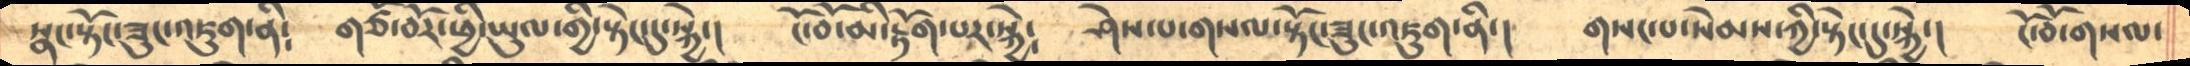སྣང་སྟོང་ཟུང་འཇུག་ནི༴    གཙོ་བོར་ཕྱི་ཡུལ་གྱི་སྟེང་དུ་སྐྱེ་།      ངོ་བོ་མི་རྟོག་པར་སྐྱེ༴       ཤེས་པ་གསལ་སྟོང་ཟུང་འཇུག་ནི་།    གསང་བ་སེམས་ཀྱི་སྟེང་དུ་སྐྱེ་།    ངོ་བོ་གསལ་
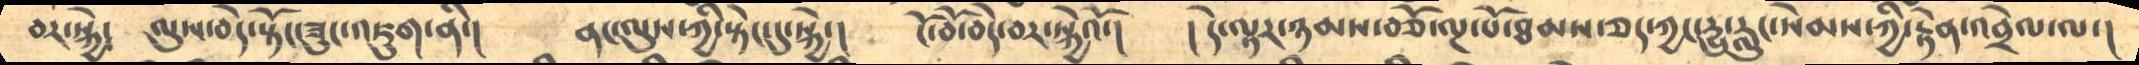བར་སྐྱེ༴      ལུས་བདེ་སྟོང་ཟུང་འཇུག་ནི་།   ནང་ལུས་ཀྱི་སྟེང་དུ་སྐྱེ་།    ངོ་བོ་བདེ་བར་སྐྱེའོ་།     ། དེ་ལྟར་ཉམས་བཅོ་ལྔ་པོ་ཐམས་ཅད་ཀྱང་དྱུ་རླུང་སེམས་ཀྱི་རྟེན་འབྲེལ་ལ་།
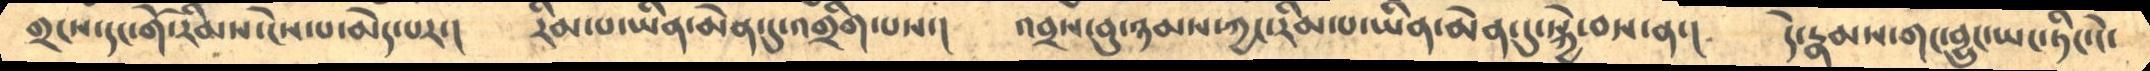གྲངས་དང་གོ་རིམས་ངེས་པ་མེད་པར་།    རིམ་པ་ཡིན་མེན་དུ་འགྲིག་པས་།    འབྲས་བུ་ཉམས་ཀྱང་རིམ་པ་ཡིན་མེན་དུ་སྐྱེ་བས་ན་།   དེ་རྣམས་གང་བྱུང་ཡང་ཏིང་ངེ་
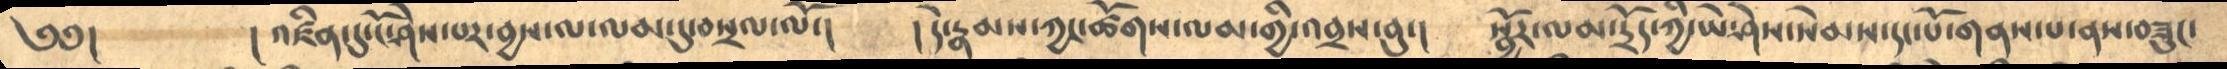༄༅།       ། འཛིན་དུ་ངོ་ཤེས་པར་བྱས་ལ་ལམ་དུ་བསྲལ་ལོ་།   །དེ་རྣམས་ཀྱང་ཚོགས་ལམ་གྱི་འབྲས་བུ་།   སྦྱོར་ལམ་དྲོད་ཀྱི་ཡེ་ཤེས་སེམས་དང་པོ་གནས་པ་ནས་བཟུང་
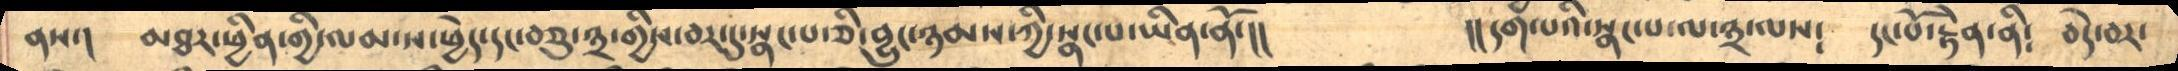ནས་། མཐར་ཕྱིན་གྱི་ལམ་ས་ཕྱེད་དང་བཅུ་༣་གྱིས་བར་དུ་སྣང་བ་ཅི་བྱུང་ཉམས་ཀྱི་སྣང་པ་ཡིན་ནོ་།།   །།དག་པའི་སྣང་པ་ལ་༣་ལས༴  དང་པོ་རྟེན་ནི༴ བདེ་བར་
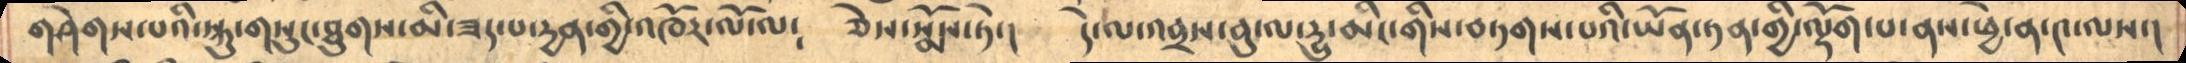གཤེགས་པའི་སྐུ་གསུང་ཐུགས་མི་ཟད་པ་དྱན་གྱི་འཁོར་ལོ་ལ༴ ཅེས་སྨོས་ཏེ་། དེ་ལ་འབྲས་བུ་ལ་དྱུ་མིང་གིས་བཏགས་པའི་ཡོན་ཏན་གྱི་ལྡོག་པ་ནས་ཕྱེ་ན་༤་ལས་།
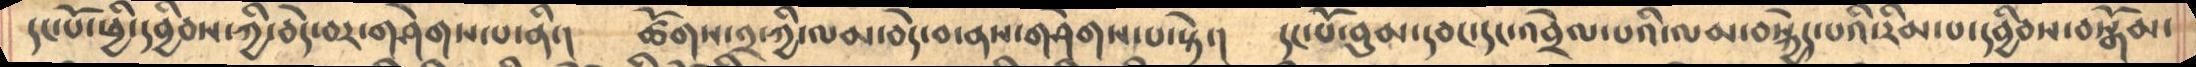དང་པོ་ཕྱི་དབྱིབས་ཀྱི་བདེ་བར་གཤེགས་པ་ནི་།  ཚོགས་༢་ཀྱི་ལམ་བདེ་བ་ནས་གཤེགས་པ་སྟེ་། དང་པོ་བུམ་དབང་དང་འབྲེལ་པའི་ལམ་བསྐྱེད་པའི་རིམ་པ་དབྱིབས་བསྒོམ་
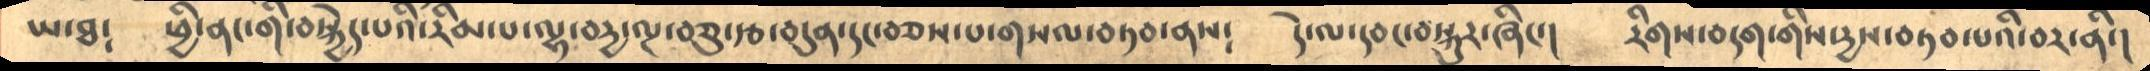ཡ་ཐ༴ ཕྱིནང་གི་བསྐྱེད་པའི་རིམ་པ་ལྷ་བདྱ་ལྔ་བཅུ་རྩ་བདུན་དང་བཅས་པ་གསལ་བཏབས་ནས༴ དེ་ལ་དབང་བསྐུར་ཞིང་། རིགས་བདག་གིས་དྱས་བཏབ་པའི་བར་ནི་།
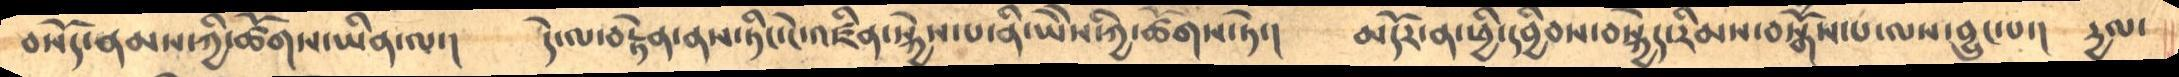བསོད་ནམས་ཀྱི་ཚོགས་ཡིན་ལ་། དེ་ལ་བརྟེན་ནས་ཏིང་ངེ་འཛིན་སྐྱེས་པ་ནི་ཡེེས་ཀྱི་ཚོགས་ཏེ་། མདོར་ན་ཕྱི་དབྱིབས་བསྐྱེད་རིམས་བསྒོཾས་པ་ལས་བྱུང་པ་། དྱལ་
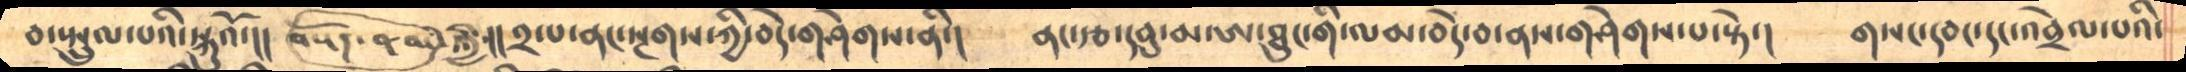བ་སྤྲུལ་པའི་སྐུའོ་།།  བསོད་ནམས་ཀྱི །།༢་པ་ནང་སྔགས་ཀྱི་བདེ་གཤེགས་ནི་།  ནང་རྩ་དབུ་མ་ཨ་ཐུང་གི་ལམ་བདེ་བ་ནས་གཤེགས་པ་སྟེ་།  གསང་དབང་དང་འབྲེལ་པའི་
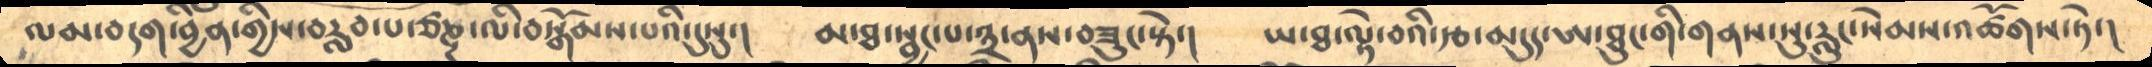ལམ་བདག་བྱིན་གྱིས་བརླབ་པ་ཙཎྔ་ལི་བསྒོམས་པའི་དུསུ་། མ་ཐ་སྦྱང་པ་༣་ནས་བཟུང་སྟེ་། ཡ་ཐ་ལྟེ་བའི་རྩ་མདུད་ཨ་ཐུང་གི་གནས་སུ་རླུང་སེམས་འཚོགས་ཏེ་།
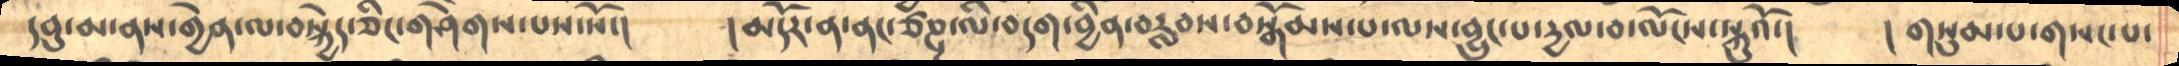དབུ་མ་ནས་གྱེན་ལ་བསྐྱེད་ཅིང་གཤེགས་པས་སོ་། །མདོར་ན་ནང་ཙཎྔ་ལི་བདག་བྱིན་བརླབས་བསྒོམས་པ་ལས་བྱུང་པ་དྱལ་བ་ལོངས་སྐུའོ་།  །གསུམ་པ་གསང་པ་
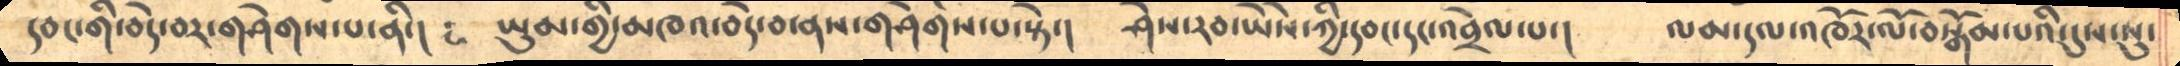དབང་གི་བདེ་བར་གཤེགས་པ་ནི་།   ཡུམ་གྱི་མཁའ་བདེ་བ་ནས་གཤེགས་པ་སྟེ་། ཤེས་རབ་ཡེེས་ཀྱི་དབང་དང་འབྲེལ་པ་། ལམ་དལ་འཁོར་ལོ་བསྒོམ་པའི་དུས་སུ་
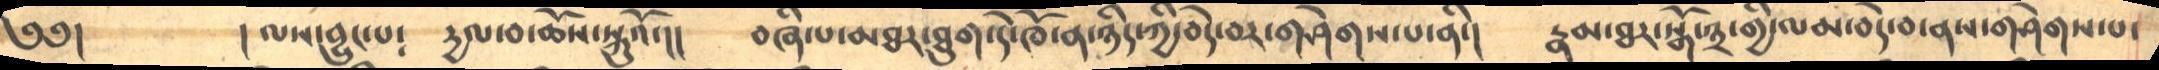༄༅།  །ལས་བྱུང་པ༴ དྱལ་བ་ཆོས་སྐུའོ་།། བཞི་པ་མཐར་ཐུགས་དེ་ཁོ་ན་ཉིད་ཀྱི་བདེ་བར་གཤེགས་པ་ནི་། རྣམ་ཐར་སྒོ་༣་གྱི་ལམ་བདེ་བ་ནས་གཤེགས་པ་
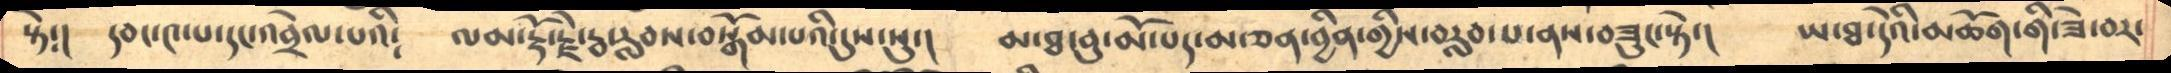སྟེ༴། དབང་༤་པ་དང་འབྲེལ་པའི༴ ལམ་རྡོ་རྗེ་རྦ་རླབས་བསྒོམ་པའི་དུས་སུ་། མ་ཐ་བུ་མོ་པད་མ་ཅན་བྱིན་གྱིས་བརླབ་པ་ནས་བཟུང་སྟེ་། ཡ་ཐ་དེའི་མཆོག་གི་ཟེ་བར་
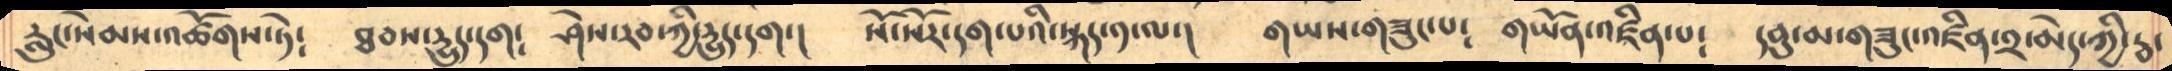རླུང་སེམས་འཚོགས་ཏེ༴ ཐབས་དྱུད་དག༴ ཤེས་རབ་ཀྱི་དྱུད་དག་། སོ་སོར་དག་པའི་སྐད་༡་ལ་། གཡས་གཟུང་པ༴ གཡོན་འཛིན་པ༴ དབུ་མ་གཟུང་འཛིན་༢་མེད་ཀྱི་རྦ་
